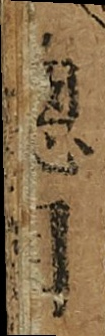總目
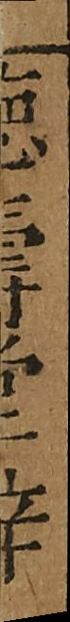德壽堂梓
